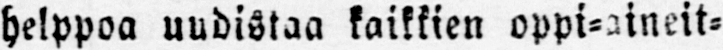helppoa uudistaa kaikkien oppi-aineit-
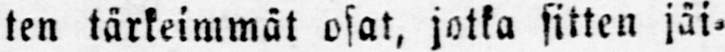ten tärkeimmät osat, jotka sitten jäi-
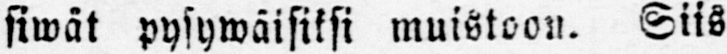siwät pysywäisiksi muistoon. Siis
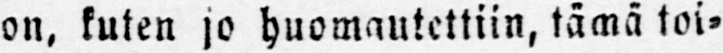on, kuten jo huomautettiin, tämä toi-
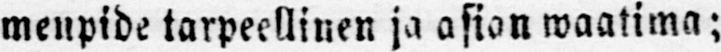menpide tarpeellinen ja asian waalima;
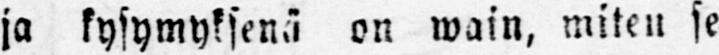ja kysymyksenä on wain, miten se
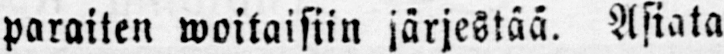paraiten woitaisiin järjestää. Asiata
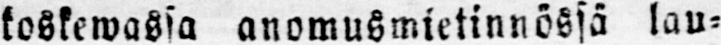koskewasta anomusmietinnössä lau-
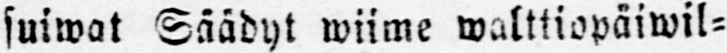suiwat Säädyt wiime walttiopäiwil-
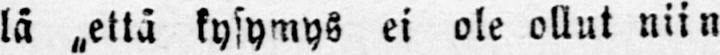lä „että kysymys ei ole ollut niin
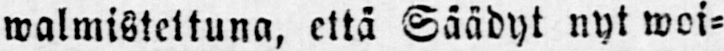walmistettuna, että Säädyt nyt woi-
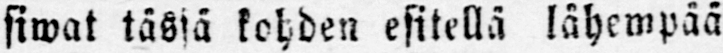siwat tästä kohden esitellä lähempää
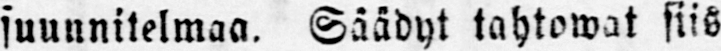suunnitelmaa. Säädyt tahtowat siis
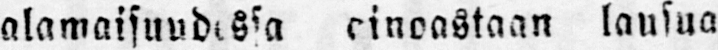alamaisuudessa ainoastaan lausua
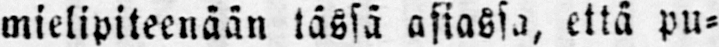mielipiteenään tässä asiassa, että pu-
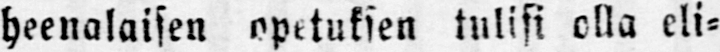heenalaisen opetuksen tulisi olla eli-
